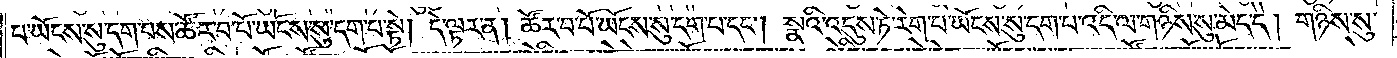པ་ཡོངས་སུ་དག་པས་ཚོར་བ་པོ་ཡོངས་སུ་དག་པ་སྟེ། དེ་ལྟར་ན། ཚོར་བ་པོ་ཡོངས་སུ་དག་པ་དང༌། སྣའི་འདུས་ཏེ་རེག་པ་ཡོངས་སུ་དག་པ་འདི་ལ་གཉིས་སུ་མེད་དེ། གཉིས་སུ་
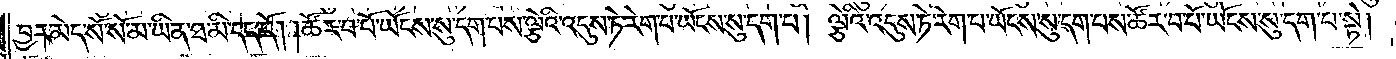བྱར་མེད་སོ་སོ་མ་ཡིན་ཐ་མི་དད་དོ། །ཚོར་བ་པོ་ཡོངས་སུ་དག་པས་ལྕེའི་འདུས་ཏེ་རེག་པ་ཡོངས་སུ་དག་པ། ལྕེའི་འདུས་ཏེ་རེག་པ་ཡོངས་སུ་དག་པས་ཚོར་བ་པོ་ཡོངས་སུ་དག་པ་སྟེ།
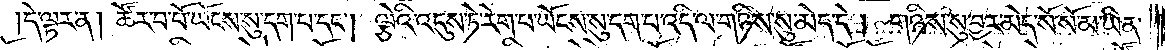དེ་ལྟར་ན། ཚོར་བ་པོ་ཡོངས་སུ་དག་པ་དང༌། ལྕེའི་འདུས་ཏེ་རེག་པ་ཡོངས་སུ་དག་པ་འདི་ལ་གཉིས་སུ་མེད་དེ། གཉིས་སུ་བྱར་མེད་སོ་སོ་མ་ཡིན་
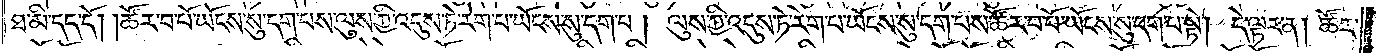ཐ་མི་དད་དོ། །ཚོར་བ་པོ་ཡོངས་སུ་དག་པས་ལུས་ཀྱི་འདུས་ཏེ་རེག་པ་ཡོངས་སུ་དག་པ། ལུས་ཀྱི་འདུས་ཏེ་རེག་པ་ཡོངས་སུ་དག་པས་ཚོར་བ་པོ་ཡོངས་སུ་དག་པ་སྟེ། དེ་ལྟར་ན། ཚོར་
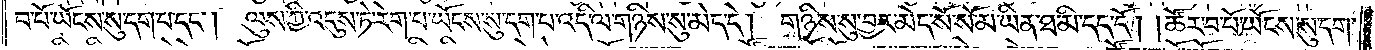བ་པོ་ཡོངས་སུ་དག་པ་དང༌། ལུས་ཀྱི་འདུས་ཏེ་རེག་པ་ཡོངས་སུ་དག་པ་འདི་ལ་གཉིས་སུ་མེད་དེ། གཉིས་སུ་བྱར་མེད་སོ་སོ་མ་ཡིན་ཐ་མི་དད་དོ། །ཚོར་བ་པོ་ཡོངས་སུ་དག་
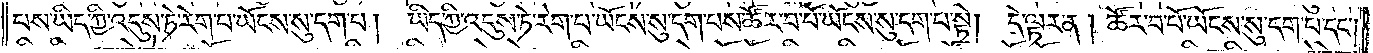པས་ཡིད་ཀྱི་འདུས་ཏེ་རེག་པ་ཡོངས་སུ་དག་པ། ཡིད་ཀྱི་འདུས་ཏེ་རེག་པ་ཡོངས་སུ་དག་པས་ཚོར་བ་པོ་ཡོངས་སུ་དག་པ་སྟེ། དེ་ལྟར་ན། ཚོར་བ་པོ་ཡོངས་སུ་དག་པ་དང༌།
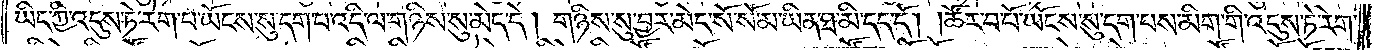ཡིད་ཀྱི་འདུས་ཏེ་རེག་པ་ཡོངས་སུ་དག་པ་འདི་ལ་གཉིས་སུ་མེད་དེ། གཉིས་སུ་བྱར་མེད་སོ་སོ་མ་ཡིན་ཐ་མི་དད་དོ། །ཚོར་བ་པོ་ཡོངས་སུ་དག་པས་མིག་གི་འདུས་ཏེ་རེག་
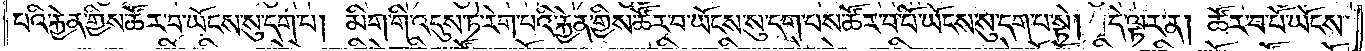པའི་རྐྱེན་གྱིས་ཚོར་བ་ཡོངས་སུ་དག་པ། མིག་གི་འདུས་ཏེ་རེག་པའི་རྐྱེན་གྱིས་ཚོར་བ་པོ་ཡོངས་སུ་དག་པས་ཚོར་བ་པོ་ཡོངས་སུ་དག་པ་སྟེ། དེ་ལྟར་ན། ཚོར་བ་པོ་ཡོངས་
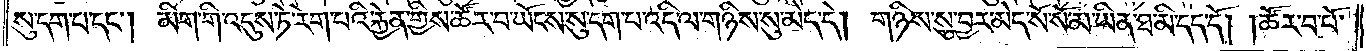སུ་དག་པ་དང༌། མིག་གི་འདུས་ཏེ་རེག་པའི་རྐྱེན་གྱིས་ཚོར་བ་ཡོངས་སུ་དག་པ་འདི་ལ་གཉིས་སུ་མེད་དེ། གཉིས་སུ་བྱར་མེད་སོ་སོ་མ་ཡིན་ཐ་མི་དད་དོ། །ཚོར་བ་པོ་
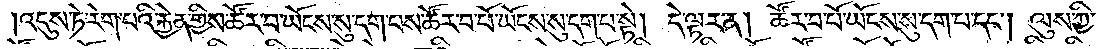འདུས་ཏེ་རེག་པའི་རྐྱེན་གྱིས་ཚོར་བ་ཡོངས་སུ་དག་པས་ཚོར་བ་པོ་ཡོངས་སུ་དག་པ་སྟེ། དེ་ལྟར་ན། ཚོར་བ་པོ་ཡོངས་སུ་དག་པ་དང༌། ལུས་ཀྱི་
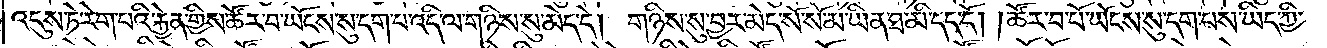འདུས་ཏེ་རེག་པའི་རྐྱེན་གྱིས་ཚོར་བ་ཡོངས་སུ་དག་པ་འདི་ལ་གཉིས་སུ་མེད་དེ། གཉིས་སུ་བྱར་མེད་སོ་སོ་མ་ཡིན་ཐ་མི་དད་དོ། །ཚོར་བ་པོ་ཡོངས་སུ་དག་པས་ཡིད་ཀྱི་
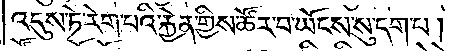འདུས་ཏེ་རེག་པའི་རྐྱེན་གྱིས་ཚོར་བ་ཡོངས་སུ་དག་པ།
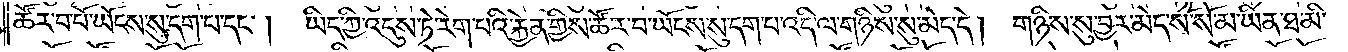ཚོར་བ་པོ་ཡོངས་སུ་དག་པ་དང༌། ཡིད་ཀྱི་འདུས་ཏེ་རེག་པའི་རྐྱེན་གྱིས་ཚོར་བ་ཡོངས་སུ་དག་པ་འདི་ལ་གཉིས་སུ་མེད་དེ། གཉིས་སུ་བྱར་མེད་སོ་སོ་མ་ཡིན་ཐ་མི་
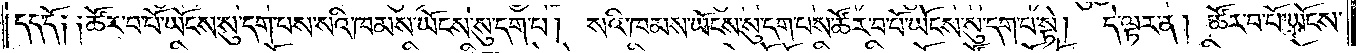དད་དོ། །ཚོར་བ་པོ་ཡོངས་སུ་དག་པས་སའི་ཁམས་ཡོངས་སུ་དག་པ། སའི་ཁམས་ཡོངས་སུ་དག་པས་ཚོར་བ་པོ་ཡོངས་སུ་དག་པ་སྟེ། དེ་ལྟར་ན། ཚོར་བ་པོ་ཡོངས་
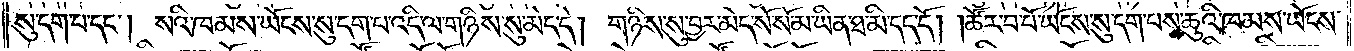སུ་དག་པ་དང༌། སའི་ཁམས་ཡོངས་སུ་དག་པ་འདི་ལ་གཉིས་སུ་མེད་དེ། གཉིས་སུ་བྱར་མེད་སོ་སོ་མ་ཡིན་ཐ་མི་དད་དོ། །ཚོར་བ་པོ་ཡོངས་སུ་དག་པས་ཆུའི་ཁམས་ཡོངས་
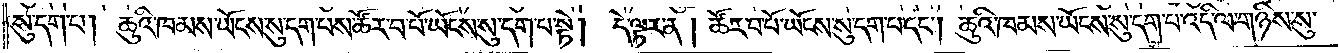སུ་དག་པ། ཆུའི་ཁམས་ཡོངས་སུ་དག་པས་ཚོར་བ་པོ་ཡོངས་སུ་དག་པ་སྟེ། དེ་ལྟར་ན། ཚོར་བ་པོ་ཡོངས་སུ་དག་པ་དང༌། ཆུའི་ཁམས་ཡོངས་སུ་དག་པ་འདི་ལ་གཉིས་སུ་
